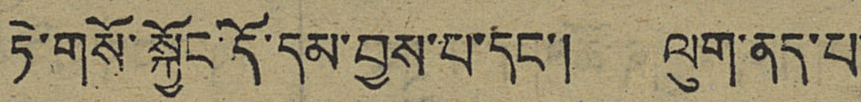ཏེ་གསོ་སྐྱོང་དོ་དམ་བྱས་པ་དང་། ལུག་ནད་པ་
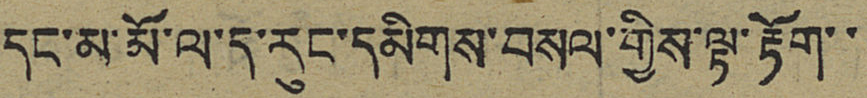དང་མ་མོ་ལ་ད་རུང་དམིགས་བསལ་གྱིས་ལྟ་རྟོག་་
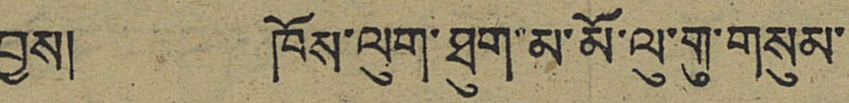བྱས། ཁོས་ལུག་ཐུག་མ་མོ་ལུ་གུ་གསུམ་
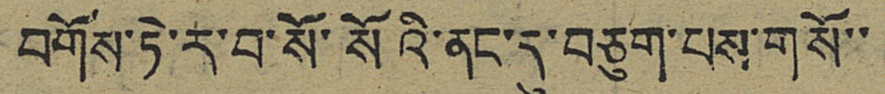བགོས་ཏེ་ར་བ་སོ་སོའི་ནང་དུ་བཅུག་པས་གསོ་་
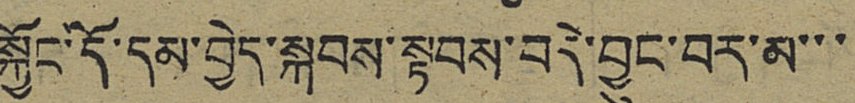སྐྱོང་དོ་དམ་བྱེད་སྐབས་སྟབས་བདེ་བྱུང་བར་མ་་་
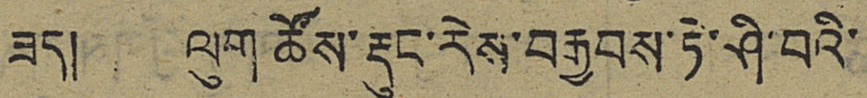ཟད། ལུག ཚོས་རྡུང་རེས་བརྒྱབས་ཏེ་ཤི་བའི་
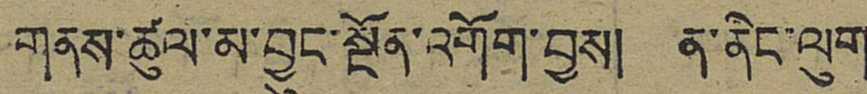གནས་ཚུལ་མ་བྱུང་སྔོན་འགོག་བྱས། ན་ནིང་ལུག
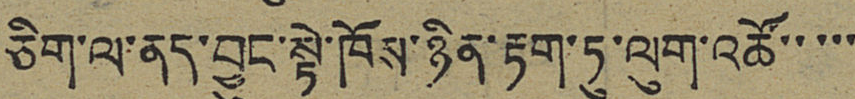ཅིག་ལ་ནད་བྱུང་སྟེ་ཁོས་ཉིན་རྟག་ཏུ་ལུག་འཚོ་་་་་
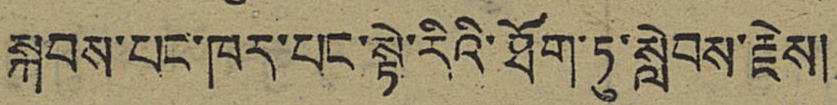སྐབས་པང་ཁར་པང་སྟེ་རིའི་ཐོག་ཏུ་སླེབས་རྗེས།
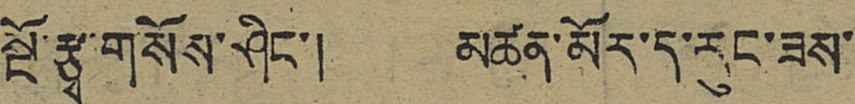སྔོ་རྩྭ་གསོས་ཤིང་། མཚན་མོར་ད་རུང་ཟས་
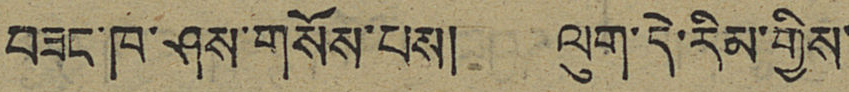བཟང་ཁ་ཤས་གསོས་པས། ལུག་དེ་རིམ་གྱིས་
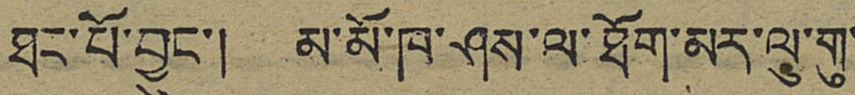ཐང་པོ་བྱུང་། མ་མོ་ཁ་ཤས་ལ་ཐོག་མར་ལུ་གུ་
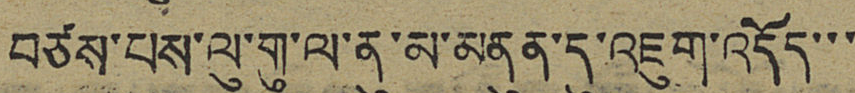བཙས་པས་ལུ་གུ་ལ་ནུ་མ་མནུན་དུ་འཇུག་འདོད་་་
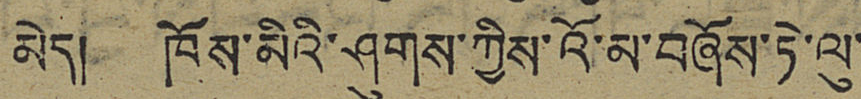མེད། ཁོས་མིའི་ཤུགས་ཀྱིས་འོ་མ་བཞོས་ཏེ་ལུ་
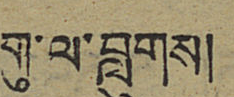གུ་ལ་བླུགས།
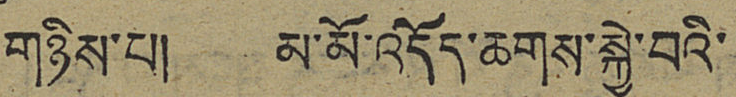གཉིས་པ། མ་མོ་འདོད་ཆགས་སྐྱེ་བའི་
